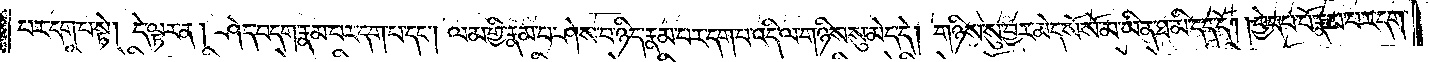པར་དག་པ་སྟེ། དེ་ལྟར་ན། ཤེད་བདག་རྣམ་པར་དག་པ་དང༌། ལམ་གྱི་རྣམ་པ་ཤེས་པ་ཉིད་རྣམ་པར་དག་པ་འདི་ལ་གཉིས་སུ་མེད་དེ། གཉིས་སུ་བྱར་མེད་སོ་སོ་མ་ཡིན་ཐ་མི་དད་དོ། །བྱེད་པ་པོ་རྣམ་པར་དག་
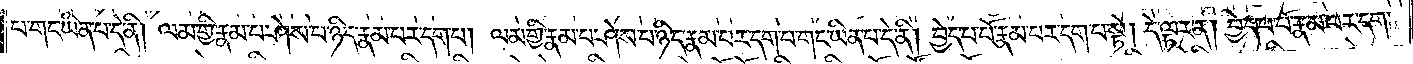པ་གང་ཡིན་པ་དེ་ནི། ལམ་གྱི་རྣམ་པ་ཤེས་པ་ཉིད་རྣམ་པར་དག་པ། ལམ་གྱི་རྣམ་པ་ཤེས་པ་ཉིད་རྣམ་པར་དག་པ་གང་ཡིན་པ་དེ་ནི། བྱེད་པ་པོ་རྣམ་པར་དག་པ་སྟེ། དེ་ལྟར་ན། བྱེད་པ་པོ་རྣམ་པར་དག་
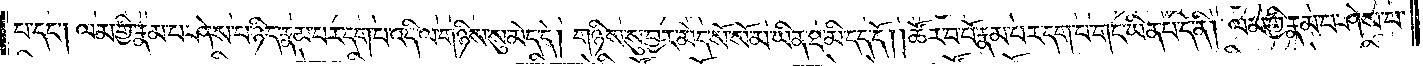པ་དང༌། ལམ་གྱི་རྣམ་པ་ཤེས་པ་ཉིད་རྣམ་པར་དག་པ་འདི་ལ་གཉིས་སུ་མེད་དེ། གཉིས་སུ་བྱར་མེད་སོ་སོ་མ་ཡིན་ཐ་མི་དད་དོ། །ཚོར་བ་པོ་རྣམ་པར་དག་པ་གང་ཡིན་པ་དེ་ནི། ལམ་གྱི་རྣམ་པ་ཤེས་པ་
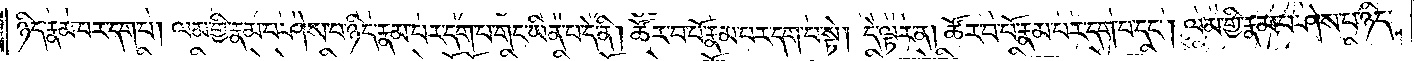ཉིད་རྣམ་པར་དག་པ། ལམ་གྱི་རྣམ་པ་ཤེས་པ་ཉིད་རྣམ་པར་དག་པ་གང་ཡིན་པ་དེ་ནི། ཚོར་བ་པོ་རྣམ་པར་དག་པ་སྟེ། དེ་ལྟར་ན། ཚོར་བ་པོ་རྣམ་པར་དག་པ་དང༌། ལམ་གྱི་རྣམ་པ་ཤེས་པ་ཉིད་
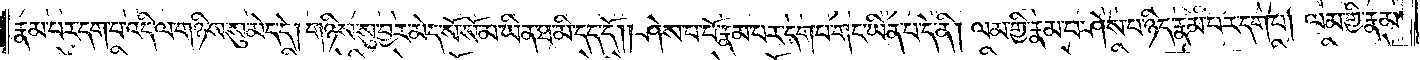རྣམ་པར་དག་པ་འདི་ལ་གཉིས་སུ་མེད་དེ། གཉིས་སུ་བྱར་མེད་སོ་སོ་མ་ཡིན་ཐ་མི་དད་དོ། །ཤེས་པ་པོ་རྣམ་པར་དག་པ་གང་ཡིན་པ་དེ་ནི། ལམ་གྱི་རྣམ་པ་ཤེས་པ་ཉིད་རྣམ་པར་དག་པ། ལམ་གྱི་རྣམ་
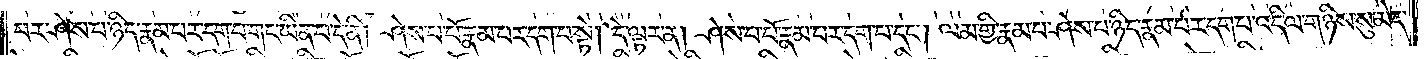པར་ཤེས་པ་ཉིད་རྣམ་པར་དག་པ་གང་ཡིན་པ་དེ་ནི། ཤེས་པ་པོ་རྣམ་པར་དག་པ་སྟེ། དེ་ལྟར་ན། ཤེས་པ་པོ་རྣམ་པར་དག་པ་དང༌། ལམ་གྱི་རྣམ་པ་ཤེས་པ་ཉིད་རྣམ་པར་དག་པ་འདི་ལ་གཉིས་སུ་མེད་
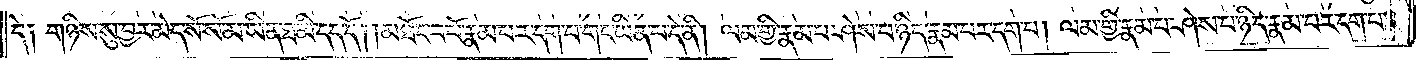དེ། གཉིས་སུ་བྱར་མེད་སོ་སོ་མ་ཡིན་ཐ་མི་དད་དོ། །མཐོང་བ་པོ་རྣམ་པར་དག་པ་གང་ཡིན་པ་དེ་ནི། ལམ་གྱི་རྣམ་པ་ཤེས་པ་ཉིད་རྣམ་པར་དག་པ། ལམ་གྱི་རྣམ་པ་ཤེས་པ་ཉིད་རྣམ་པར་དག་པ་
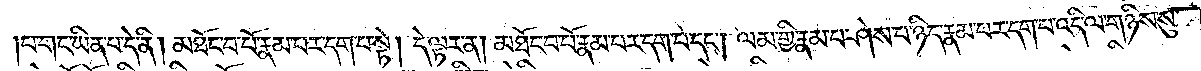པ་གང་ཡིན་པ་དེ་ནི། མཐོང་བ་པོ་རྣམ་པར་དག་པ་སྟེ། དེ་ལྟར་ན། མཐོང་བ་པོ་རྣམ་པར་དག་པ་དང༌། ལམ་གྱི་རྣམ་པ་ཤེས་པ་ཉིད་རྣམ་པར་དག་པ་འདི་ལ་གཉིས་སུ་
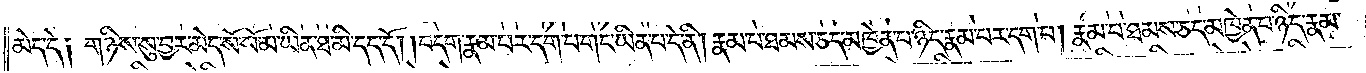མེད་དེ། གཉིས་སུ་བྱར་མེད་སོ་སོ་མ་ཡིན་ཐ་མི་དད་དོ། །བདག་རྣམ་པར་དག་པ་གང་ཡིན་པ་དེ་ནི། རྣམ་པ་ཐམས་ཅད་མཁྱེན་པ་ཉིད་རྣམ་པར་དག་པ། རྣམ་པ་ཐམས་ཅད་མཁྱེན་པ་ཉིད་རྣམ་
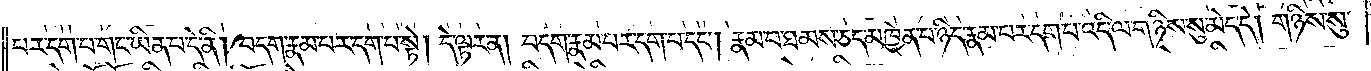པར་དག་པ་གང་ཡིན་པ་དེ་ནི། བདག་རྣམ་པར་དག་པ་སྟེ། དེ་ལྟར་ན། བདག་རྣམ་པར་དག་པ་དང༌། རྣམ་པ་ཐམས་ཅད་མཁྱེན་པ་ཉིད་རྣམ་པར་དག་པ་འདི་ལ་གཉིས་སུ་མེད་དེ། གཉིས་སུ་
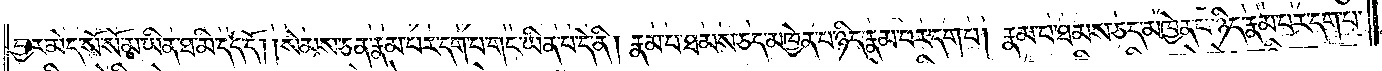བྱར་མེད་སོ་སོ་མ་ཡིན་ཐ་མི་དད་དོ། །སེམས་ཅན་རྣམ་པར་དག་པ་གང་ཡིན་པ་དེ་ནི། རྣམ་པ་ཐམས་ཅད་མཁྱེན་པ་ཉིད་རྣམ་པར་དག་པ། རྣམ་པ་ཐམས་ཅད་མཁྱེན་པ་ཉིད་རྣམ་པར་དག་པ་
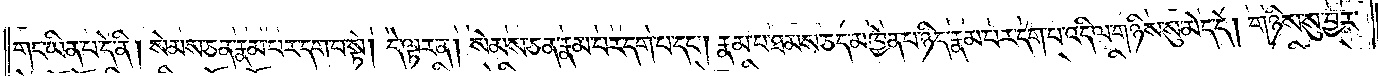གང་ཡིན་པ་དེ་ནི། སེམས་ཅན་རྣམ་པར་དག་པ་སྟེ། དེ་ལྟར་ན། སེམས་ཅན་རྣམ་པར་དག་པ་དང༌། རྣམ་པ་ཐམས་ཅད་མཁྱེན་པ་ཉིད་རྣམ་པར་དག་པ་འདི་ལ་གཉིས་སུ་མེད་དེ། གཉིས་སུ་བྱར་
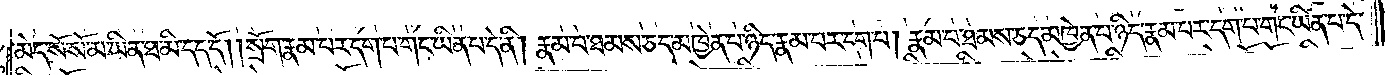མེད་སོ་སོ་མ་ཡིན་ཐ་མི་དད་དོ། །སྲོག་རྣམ་པར་དག་པ་གང་ཡིན་པ་དེ་ནི། རྣམ་པར་ཐམས་ཅད་མཁྱེན་པ་ཉིད་རྣམ་པར་དག་པ། རྣམ་པ་ཐམས་ཅད་མཁྱེན་པ་ཉིད་རྣམ་པར་དག་པ་གང་ཡིན་པ་དེ་
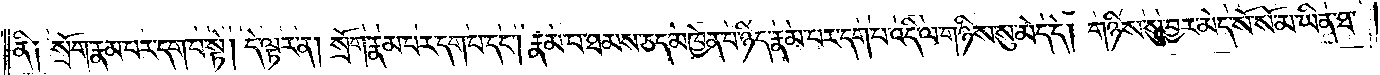ནི༑ སྲོག་རྣམ་པར་དག་པ་སྟེ། དེ་ལྟ་ན། སྲོག་རྣམ་པར་དག་པ་དང༌། རྣམ་པ་ཐམས་ཅད་མཁྱེན་པ་ཉིད་རྣམ་པར་དག་པ་འདི་ལ་གཉིས་སུ་མེད་དེ། གཉིས་སུ་བྱར་མེད་སོ་སོ་མ་ཡིན་ཐ་
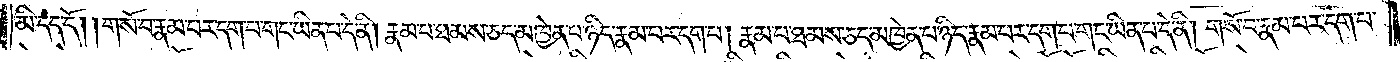མི་དད་དོ། །གསོ་བ་རྣམ་པར་དག་པ་གང་ཡིན་པ་དེ་ནི། རྣམ་པ་ཐམས་ཅད་མཁྱེན་པ་ཉིད་རྣམ་པར་དག་པ། རྣམ་པ་ཐམས་ཅད་མཁྱེན་པ་ཉིད་རྣམ་པར་དག་པ་གང་ཡིན་པ་དེ་ནི། གསོ་བ་རྣམ་པར་དག་པ་
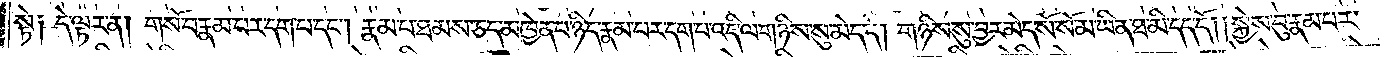སྟེ༑ དེ་ལྟར་ན། གསོ་བ་རྣམ་པར་དག་པ་དང༌། རྣམ་པ་ཐམས་ཅད་མཁྱེན་པ་ཉིད་རྣམ་པར་དག་པ་འདི་ལ་གཉིས་སུ་མེད་དེ། གཉིས་སུ་བྱར་མེད་སོ་སོ་མ་ཡིན་ཐ་མི་དད་དོ། །སྐྱེས་བུ་རྣམ་པར་
